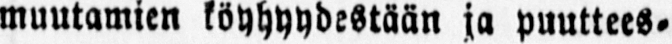muutamien köyhyydestään ja puuttees-
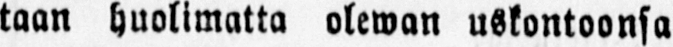taan huolimatta olewan uskontoonsa
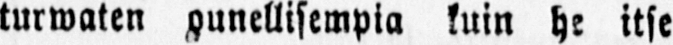turwaten ounellisempia kuin he itse
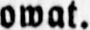owat.
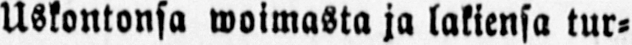Uskontonsa woimasta ja lakiensa tur-
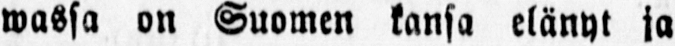wassa on Suomen kansa elänyt ja
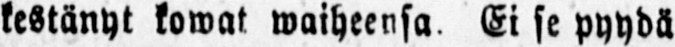kestänyt kowat waiheensa Ei se pyydä
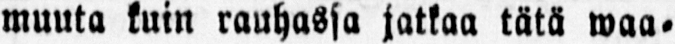muuta kuin rauhassa jatkaa tätä waa-
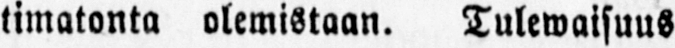timatonta olemistaan. Tulewaisuus
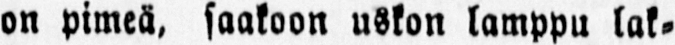on pimeä, saakoon uskon lamppu lak-
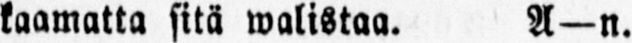laamatta sitä walistaa. A—n.
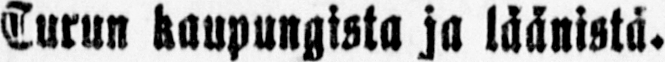Turun kaupungista ja läänistä.
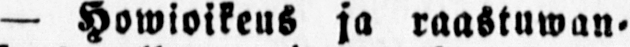— Howioikeus ja raastuwan-
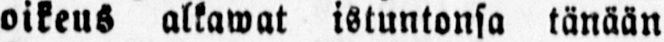oikeus alkawat istuntonsa tänään
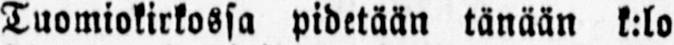Tuomiokirkossa pidetään tänään k.lo
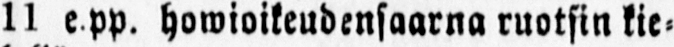11 e. pp. howioikeudensaarna ruotsin kie-
